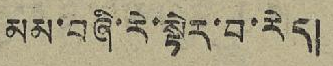མམ་བཞི་རེ་སྟེར་བ་རེད།
